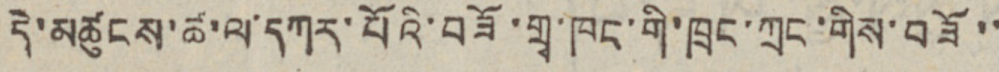དེ་མཚུངས་ཚ་ལ་དཀར་པོའི་བཟོ་གྲྭ་ཁང་གི་ཁྲང་ཀྲང་གིས་བཟོ་་
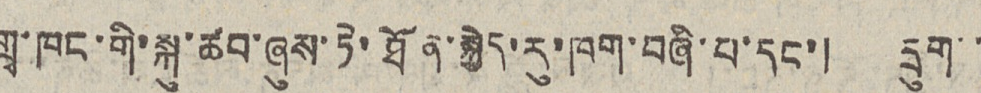གྲྭ་ཁང་གི་སྐུ་ཚབ་ཞུས་ཏེ་ཐོན་སྐྱེད་རུ་ཁག་བཞི་པ་དང་། དྲུག་་
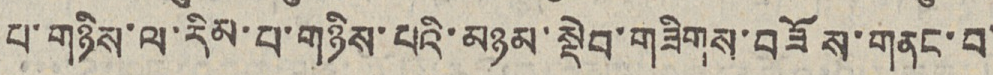པ་གཉིས་ལ་རིམ་པ་གཉིས་པའི་མཉམ་སྡེབ་གཟིགས་བཟོས་གནང་བ་
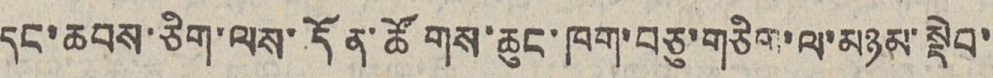དང་ཆབས་ཅིག་ལས་དོན་ཚོགས་ཆུང་ཁག་བཅུ་གཅིག་ལ་མཉམ་སྡེབ་
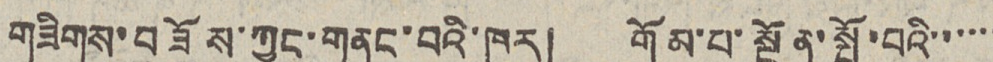གཟིགས་བཟོས་ཀྱང་གནང་བའི་ཁར། གོམ་པ་སྔོན་སྤོ་བའི་་་་་་
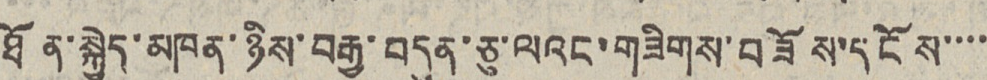ཐོན་སྐྱེད་མཁན་ཉིས་བརྒྱ་བདུན་ཅུ་ལའང་གཟིགས་བཟོས་དངོས་་་་
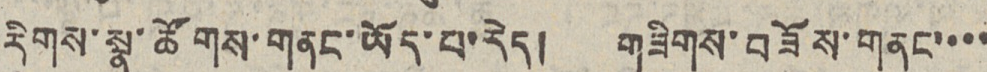རིགས་སྣ་ཚོགས་གནང་ཡོད་པ་རེད། གཟིགས་བཟོས་གནང་་་་
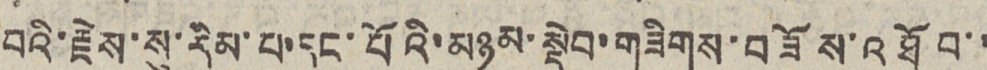བའི་རྗེས་སུ་རིམ་པ་དང་པོའི་མཉམ་སྡེབ་གཟིགས་བཟོས་འཐོབ་་
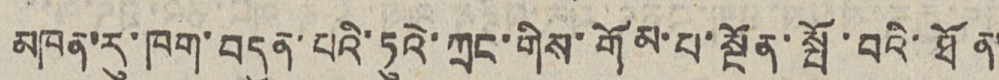མཁན་རུ་ཁག་བདུན་པའི་ཏུའེ་ཀྲང་གིས་གོམ་པ་སྔོན་སྤོ་བའི་ཐོན་
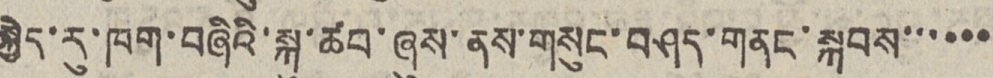སྐྱེད་རུ་ཁག་བཞིའི་སྐུ་ཚབ་ཞུས་ནས་གསུང་བཤད་གནང་སྐབས་་་་་་
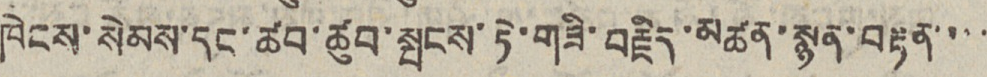ཁེངས་སེམས་དང་ཚབ་ཚུབ་སྤངས་ཏེ་གཟི་བརྗོད་མཚན་སྙན་བརྟན་་་་
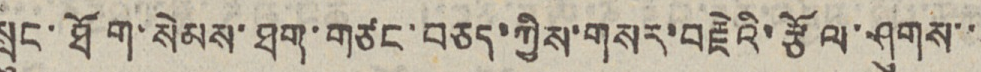སྲུང་ཐོག་སེམས་ཐག་གཙང་བཅད་ཀྱིས་གསར་བརྗེའི་རྩོལ་ཤུགས་་
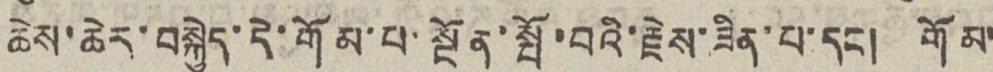ཆེས་ཆེར་བསྐྱེད་དེ་གོམ་པ་སྔོན་སྤོ་བའི་རྗེས་ཟིན་པ་དང། གོམ་
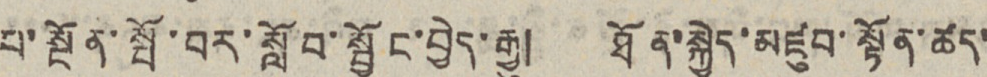པ་སྔོན་སྤོ་བར་སློབ་སྦྱོང་བྱེད་རྒྱུ། ཐོན་སྐྱེད་མཛུབ་སྟོན་ཚད་
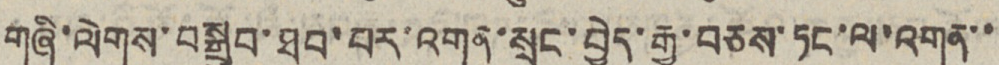གཞི་ལེགས་བསྒྲུབ་ཐུབ་པར་འགན་སྲུང་བྱེད་རྒྱུ་བཅས་ཏང་ལ་འགན་་
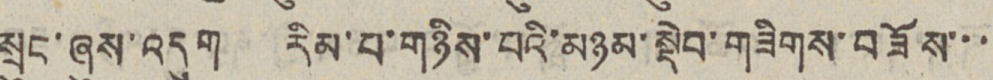སྲུང་ཞུས་འདུག རིམ་པ་གཉིས་པའི་མཉམ་སྡེབ་གཟིགས་བཟོས་་་
